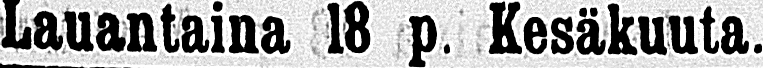Lauantaina 18 p. Kesäkuuta.
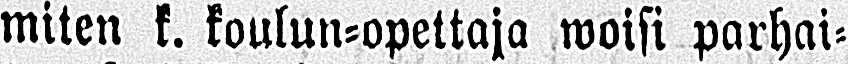miten k. koulun-opettaja woisi parhai-
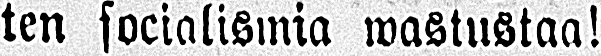ten socialismia wastustaa!
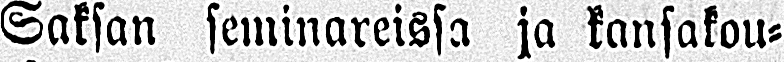Saksan seminareissa ja kansakou-
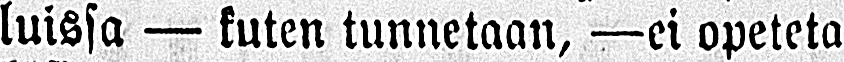luissa — kuten tunnetaan, —ei opeteta
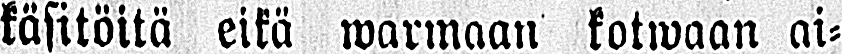käsitöitä eikä warmaan kotwaan ai-
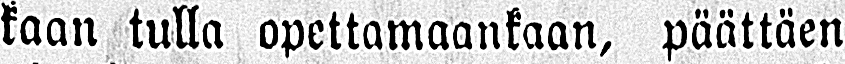kaan tulla opettamaankaan, päättäen
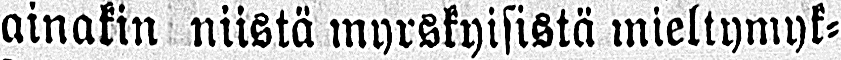ainakin niistä myrskyisistä mieltymyk-
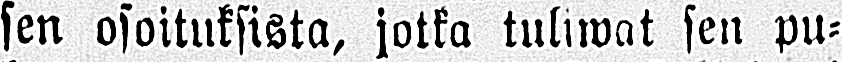sen osoituksista, jotka tuliwat sen pu-
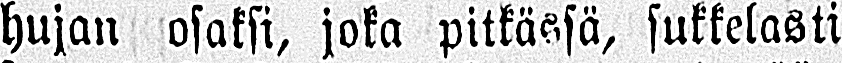hujan osaksi, joka pitkässä, sukkelasti
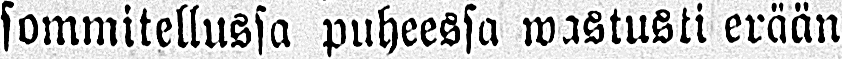sommitellussa puheessa wastusti erään
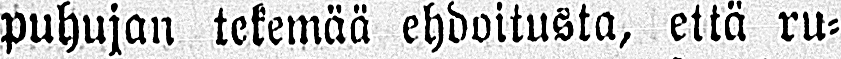puhujan tekemää ehdoitusta, että ru-
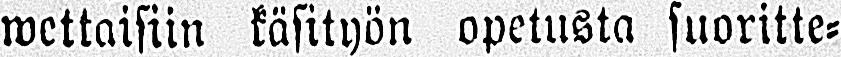wettaisiin käsityön opetusta juonite-
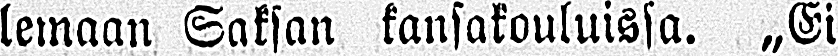lemaan Saksan kansakouluissa. „Ei
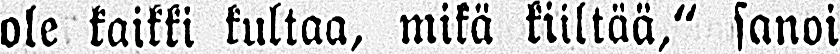ole kaikki kultaa, mikä kiiltää," sanoi
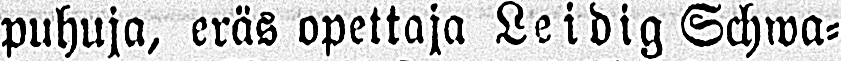puhuja, eräs opettaja Leidig Schwa-
